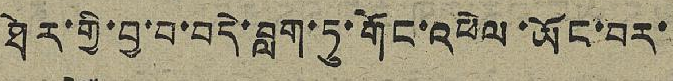ཐེར་གྱི་བྱ་བ་བདེ་བླག་ཏུ་གོང་འཕེལ་ཡོང་བར་
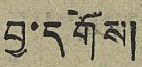བྱ་དགོས།
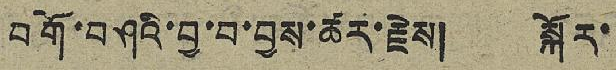བགོ་བཤའི་བྱ་བ་བྱས་ཚར་རྗེས། སྐོར་
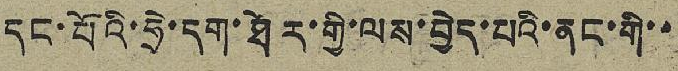དང་པོའི་ཧྲེ་དག་ཐེར་གྱི་ལས་བྱེད་པའི་ནང་གི་་
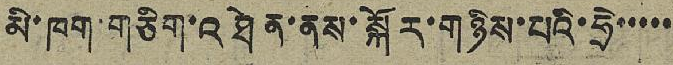མི་ཁག་གཅིག་འཐེན་ནས་སྐོར་གཉིས་པའི་ཧྲེ་་་་་
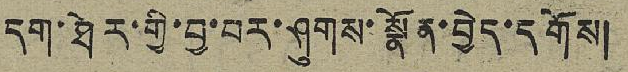དག་ཐེར་གྱི་བྱ་བར་ཤུགས་སྣོན་བྱེད་དགོས།
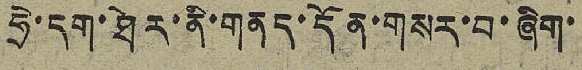ཧྲེ་དག་ཐེར་ནི་གནད་དོན་གསར་བ་ཞིག་
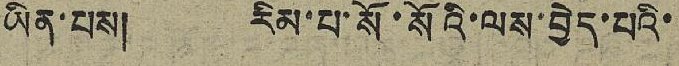ཡིན་པས། རིམ་པ་སོ་སོའི་ལས་བྱེད་པའི་
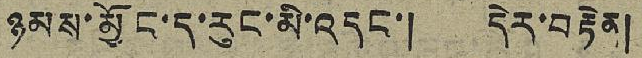ཉམས་མྱོང་ད་རུང་མི་འདང་། དེར་བརྟེན།
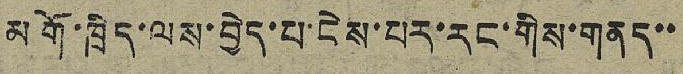མགོ་ཁྲིད་ལས་བྱད་པ་ངེས་པར་རང་གིས་གནད་་
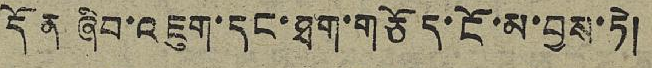དོན ཞིབ་འཇུག་དང་ཐག་གཅོད་ངོ་མ་བྱས་ཏེ།
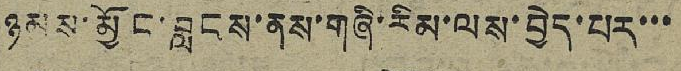ཉམས་མྱོང་བླངས་ནས་གཞི་རིམ་ལས་བྱེད་པར་་་
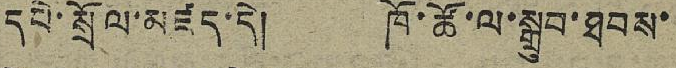དཔེ་སྲོལ་མཛད་དེ། ཁོ་ཚོ་ལ་སྒྲུབ་ཐབས་
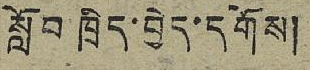སློབ་ཁྲིད་བྱེད་དགོས།
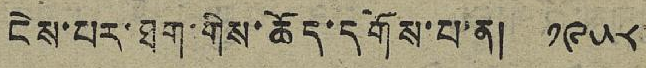ངེས་པར་ཐག་གིས་ཆོད་དགོས་པ་ན། ༡༩༥༨
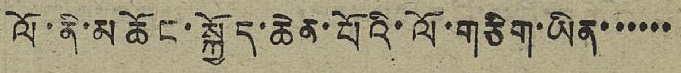ལོ་ནི་མཆོང་སྐྱོད་ཆེན་པོའི་ལོ་གཅིག་ཡིན་་་་་་
